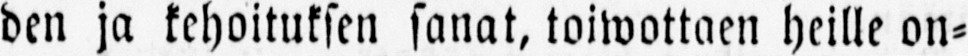den ja kehoituksen sanat, toiwottaen heille on-
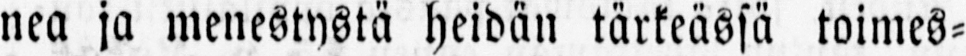nea ja menestystä heidän tärkeässä toimes-
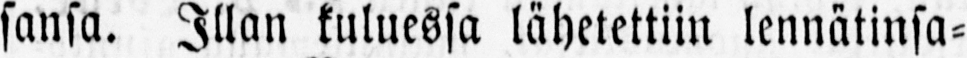sansa. Illan kuluessa lähetettiin lennätinsa-
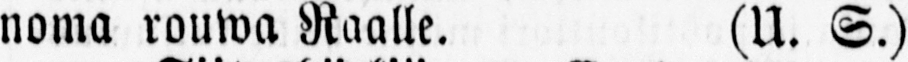noma rouwa Raalle. (U. S.)
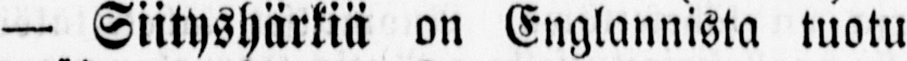— Siityshärkiä on Englannista tuotu
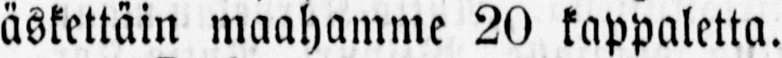äskettäin maahamme 20 kappaletta.
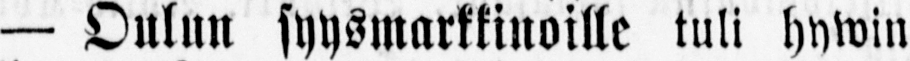— Oulun syysmarkkinoille tuli hywin
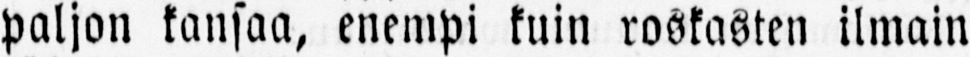paljon kansaa, enempi kuin raskasten ilmain
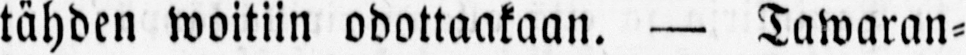tähden woitiin odottaakaan. — Tawaran-
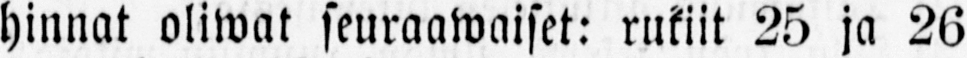hinnat oliwat seuraawaiset: rukiit 25 ja 26
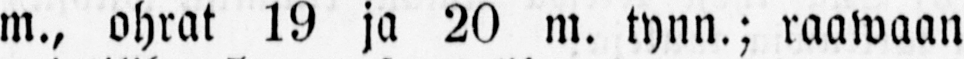m., ohrat 19 ja 20 m. tynn.; raawaan
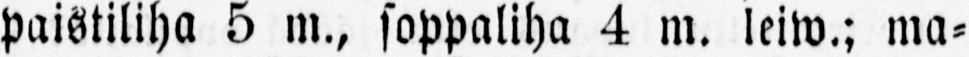paistiliha 5 m., soppaliha 4 m. leiw.; ma-
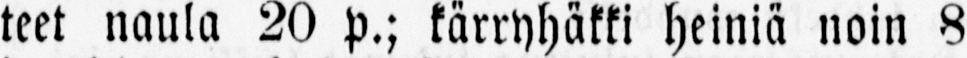teet naula 20 p.; kärryhäkki heiniä noin 8
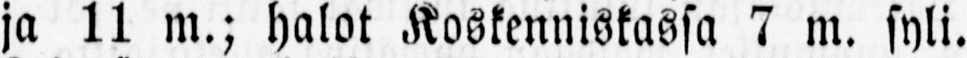ja 11 m.; halot Koskenniskassa 7 m. syli.
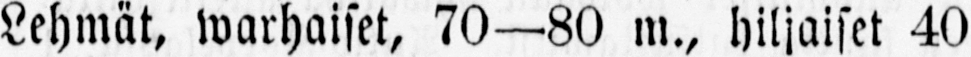Lehmät, warhaiset, 70—80 m., hiljaiset 40
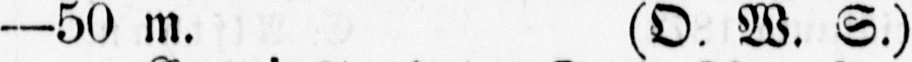—50 m. (O. W. S.)
